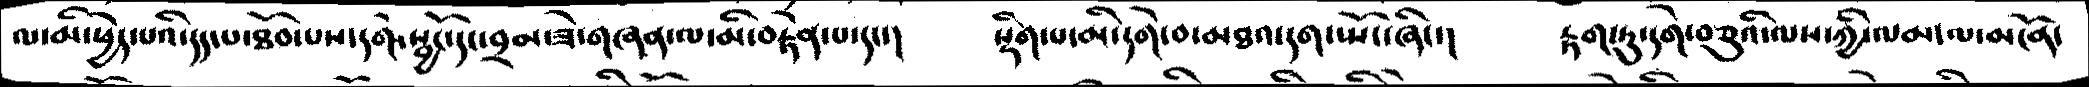ལ་མི་ཕྱེད་པའི་དད་པ་ཐོབ་པས་དགེ་སྦྱོང་དང་བྲམ་ཟེ་གཞན་ལ་མི་བརྟེན་པ་དང་།    སྡིག་པ་མི་དགེ་བ་མཐའ་དག་སྤོང་ཞིང་།     རྟག་ཏུ་དགེ་བཅུའི་ལས་ཀྱི་ལམ་ལ་མངོན་
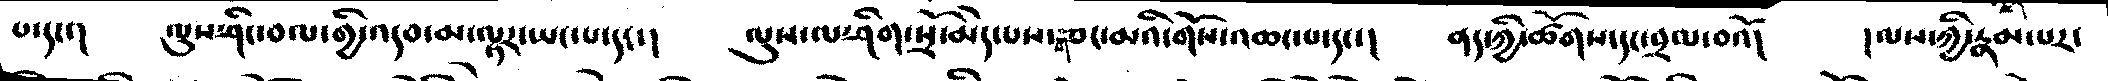པ་དང་།    ལུས་ཤིང་བལ་གྱི་འདབ་མ་ལྟར་སྤང་པ་དང་།     ལུས་ལ་ཤིག་སྲོ་མེད་པས་གཅང་མའི་གོས་འཆང་པ་དང་།     ནད་ཀྱི་ཚོགས་དང་བྲལ་བའོ།    །ལས་ཀྱི་རྣམ་པར་
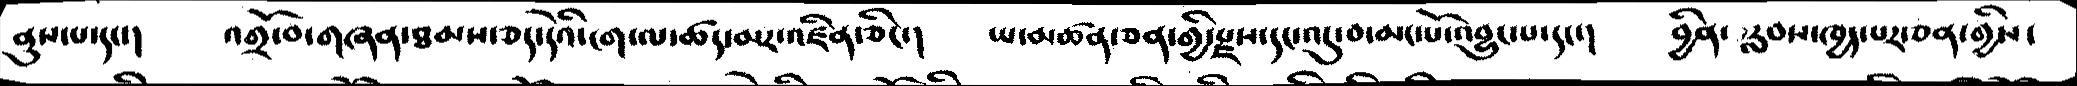ནུས་པ་དང་།    འགྲོ་བ་གཞན་ཐམས་ཅད་དེའི་ངག་ལ་ཚད་མར་འཛིན་ཅིང་།   ཡ་མཚན་ཅན་གྱི་རྫས་དང་འདུ་བ་མང་པོ་འབྱུང་པ་དང་།     བྱིན་རླབས་ཁྱད་པར་ཅན་གྱིས་
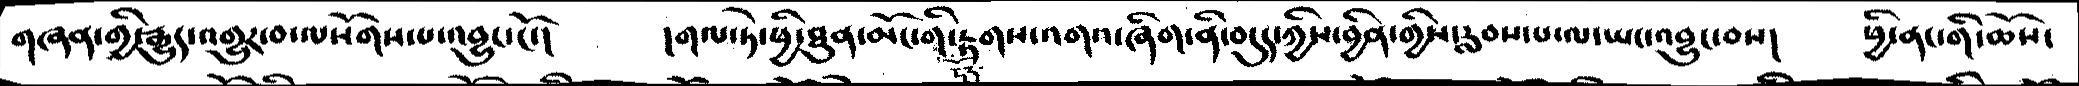གཞན་གྱི་རྒྱུད་འགྱུར་བ་ལ་སོགས་པ་འབྱུང་ངོ་།   །གལ་ཏེ་ཕྱི་ཐུན་མོང་གི་དོད་རྟགས་འགའ་ཞིག་ནི་བདུད་ཀྱིས་བྱིན་གྱིས་རླབས་པ་ལ་ཡང་འབྱུང་བས།   ཕྱི་ནང་གི་ཆོས་
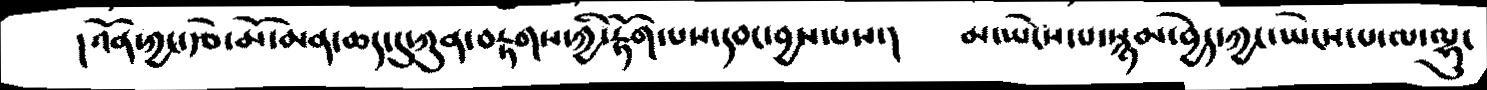།འོན་ཀྱང་རྩེ་མོ་མན་ཆད་ཀུན་བརྟགས་ཀྱི་རྟོག་པས་དབང་བྱས་པས་།   མ་ཡེངས་པ་སྙམ་བྱེད་ཀྱང་ཡེངས་པ་ལ་ལྷུ་
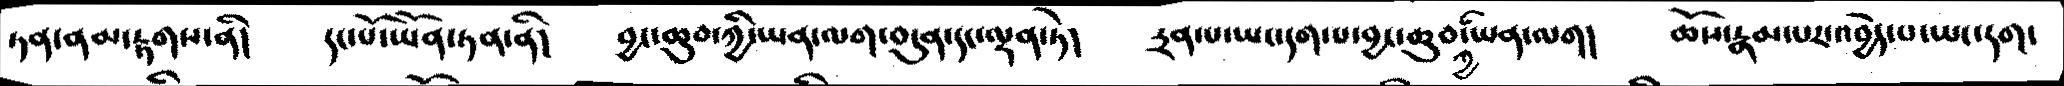ཏན་ནམ་རྟགས་ནི།   དང་པོ་ཡོན་ཏན་ནི།   བྱང་ཆུབ་ཀྱི་ཡན་ལག་བདུན་དང་ལྡན་ཏེ།   དྲན་པ་ཡང་དག་པ་བྱང་ཆུབ་ཀྱི་ཡན་ལག།   ཆོས་རྣམ་པར་འབྱེད་པ་ཡང་དག་
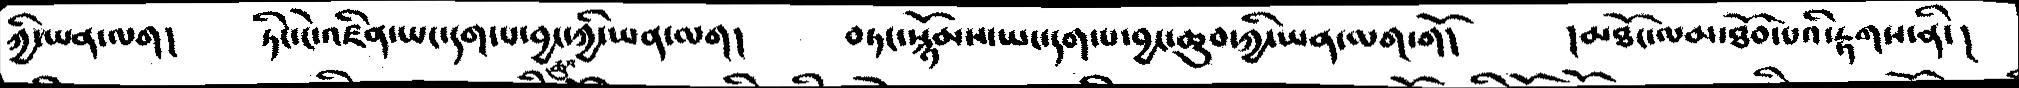ཀྱི་ཡན་ལག།    ཏིང་ངེ་འཛིན་ཡང་དག་པ་བྱང་ཆུབ་ཀྱི་ཡན་ལག།   བཏང་སྙོམས་ཡང་དག་པ་བྱང་ཆུབ་ཀྱི་ཡན་ལག་གོ།   །མཐོང་ལམ་ཐོབ་པའི་རྟགས་ནི་།
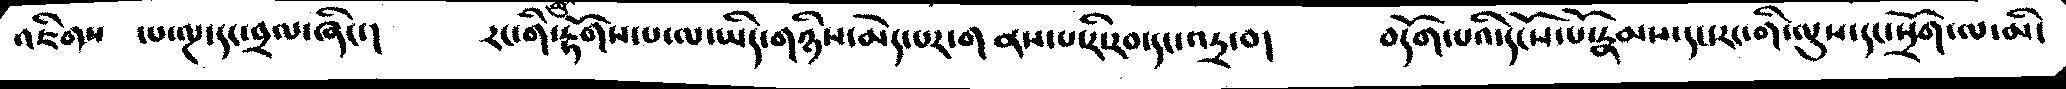འཇིགས་པ་ལྔ་དང་བྲལ་ཞིང་།   རང་གི་རྟོགས་པ་ལ་ཡིད་གཉིས་མེད་པར་གནས་པ་རི་རབ་དང་འདྲ་བ།   བདོག་པའི་དངོས་པོ་རྣམས་དང་རང་གི་ལུས་དང་སྲོག་ལ་མི་
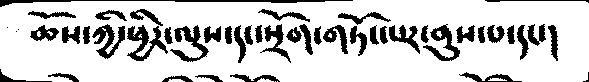ཆོས་ཀྱི་ཕྱིར་ལུས་དང་སྲོག་གཏོང་པར་ནུས་པ་དང་།
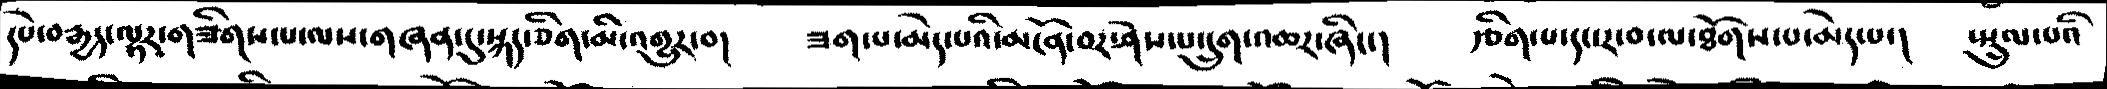དཔེ་བརྒྱད་ལྟར་གཟིགས་པ་ལས་གཞན་དུ་སྐད་ཅིག་མི་འགྱུར་བ།   ཟག་པ་མེད་པའི་མངོན་བར་ཤེས་པ་དྲུག་འཆར་ཞིང་།   རྩིག་པ་དང་ར་བ་ལ་ཐོགས་པ་མེད་པ་།   སྤྲུལ་པའི
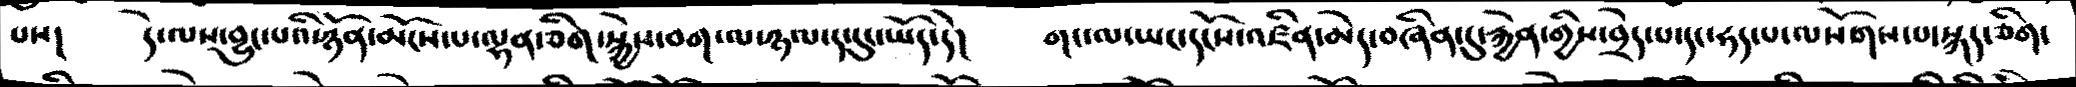པས།   དེ་ལས་བྱུང་པའི་ཉོན་མོངས་པ་ལྷན་ཅིག་སྐྱེས་བག་ལ་ཉལ་ད་དུང་ཡོད་དེ།   གང་ལ་ཡང་དངོས་འཛིན་མེད་བཞིན་དུ་རྐྱེན་གྱིས་བྲེད་པ་དང་ཧད་པ་ལསོགས་པ་སྐད་ཅིག་
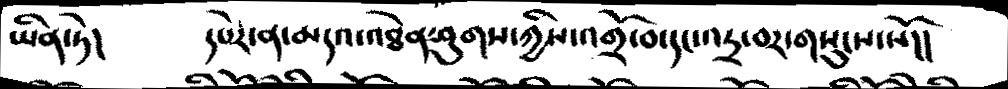ཡིན་ཏེ།   དཔེར་ན་མདའ་འཐེན་ཤུགས་ཀྱིས་འགྲོ་བ་དང་འདྲ་བར་གསུངས་སོ།།
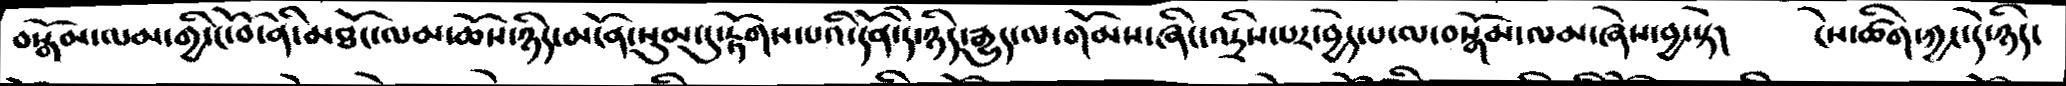བསྒོམ་ལམ་གྱི་ངོ་བོ་ནི་མཐོང་ལམ་ཆོས་ཉིད་མངོན་སུམ་དུ་རྟོགས་པའི་དོན་དེ་ཉིད་རྒྱུད་ལ་གོམས་ཞིང་འདྲིས་པར་བྱེད་པ་ལ་བསྒོམ་ལམ་ཞེས་བྱ་སྟེ།   ངེས་ཚིག་ཀྱང་དེ་ཉིད་
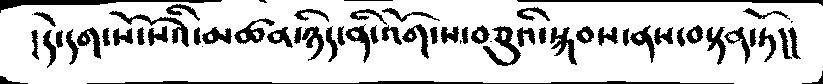།དེ་དག་སོ་སོའི་མཚན་ཉིད་ནི་འོག་ས་བཅུའི་སྐབས་ནས་བསྟན་ཏོ།།
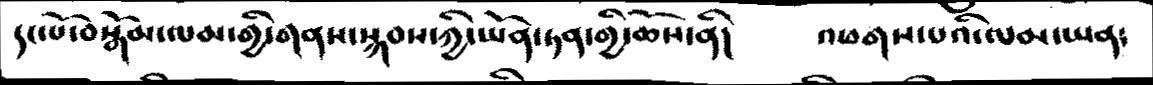དང་པོ་བསྒོམ་ལམ་གྱི་གནས་སྐབས་ཀྱི་ཡོན་ཏན་གྱི་ཆོས་ནི།   འཕགས་པའི་ལམ་ཡན༴
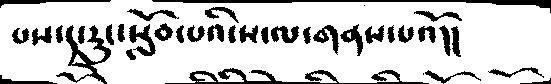པས་ད་རུང་སློབ་པའི་ས་ལ་གནས་པའོ།།
